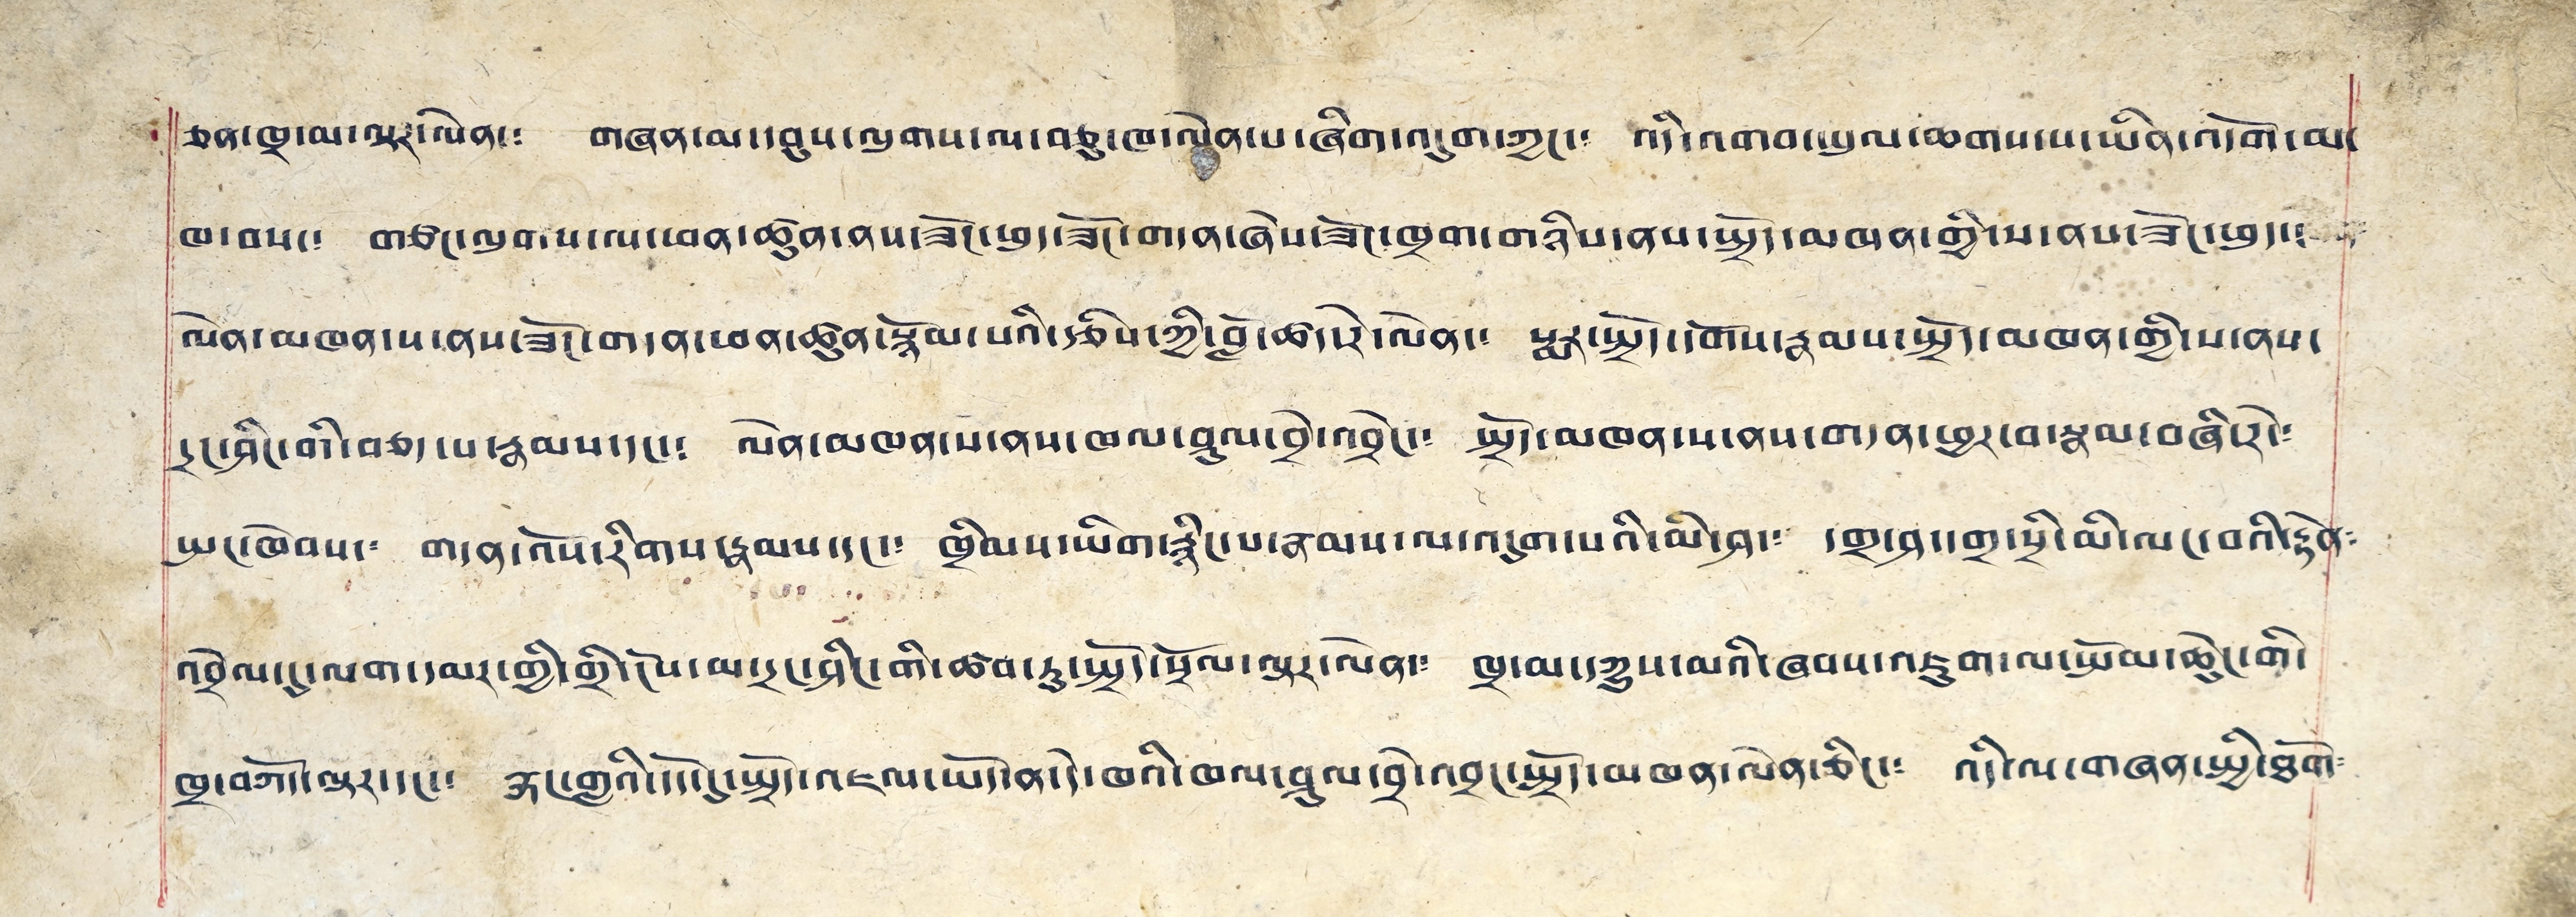ཅན་ཁྲ་མ་ལྟར་ལེན་༴ གཞན་མ་དབུས་ལུགས་ལ་བཅུ་ཁ་ལེན་པ་ཞིག་འདུག་ཀྱང་༴ འདི་འགབ་ཡུལ་ཆགས་པ་ཡིན་འདོག་མ་
ཁ་བས་༴ གཙང་ལུགས་ལ་ཕན་ཚུན་ནས་ཟོང་ཕུད་ཟོང་གདན་ཞེས་ཟེང་ཁྲག་གཉིས་ནས་སྤྲོད་མཁན་གྱིས་ནས་ཟོང་ཕྱད་༴
ལེན་མཁན་པ་ནས་ཟོང་གདན་ཕན་ཚུན་སྙོམ་པའི་རྩིས་ཀྱི་བློ་ཚད་རེ་ལེན་༴ སྨར་སྤྲོད་དགོས་རྣམས་སྤྲོད་མཁན་གྱི་ས་ནས་
དྲང་ཤིང་གི་བཅད་པ་རྣམས་དང་༴ ལེན་མཁན་པ་ནས་ཁལ་ཤུལ་བྲེ་འབྲེང་། སྤྲོད་མཁན་ས་ནས་གདན་ཕྱར་བ་རྣམ་བཞི་རེ་༴
སྤང་ཁེབས་༴ གདན་འོས་རིགས་རྣམས་དང་༴ ཁྲིམས་ཡིག་རྙིང་པ་རྣམས་ལ་འདུག་པའི་མི་ཤ་༴ དགྲ་ཤ་དགྲ་སྲི་མི་ལང་བའི་རྟེན༴
འབྲེལ་དུ་ལག་དམར་གྱི་གྲི་ངོས་མ་དྲང་ཤིང་གི་ཚབ་ཏུ་སྤྲོད་སྲོལ་ལྟར་ལེན་༴ ཁྲ་མ་དཀྱུས་མའི་ཞབས་འཇུག་ལ་སྤོམ་ཆེུང་གི་
ཁྲ་བཀོད་ལྟར་དང་༴ རྐང་གླའི་དོད་དུ་སྤྲོད་འཇལ་ཡོད་ན་དེ་ཁའི་ཁལ་ཤུལ་བྲེ་འབྲང་སྤྲོད་མཁན་ལེན་ཅིང་༴ འདི་ལ་གཞན་སྤྱི་ཐོག༴
